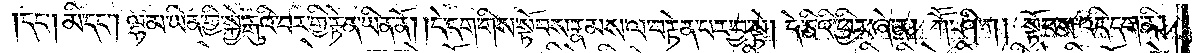དང༌། མི་དང༌། ལྷ་མ་ཡིན་གྱི་སྐྱེ་རྒུའི་བར་གྱི་རྟེན་ཡིན་ནོ། །དེ་དག་གིས་སྟོབས་རྣམས་ལ་བརྟེན་པར་བྱ་སྟེ། དེ་ཅིའི་ཕྱིར་ཞེ་ན། ཀཽ་ཤི་ཀ། སྟོབས་འདི་དག་ནི།
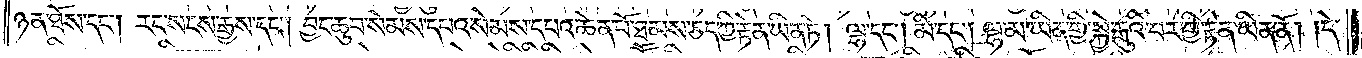ཉན་ཐོས་དང༌། རང་སངས་རྒྱས་དང༌། བྱང་ཆུབ་སེམས་དཔའ་སེམས་དཔའ་ཆེན་པོ་ཐམས་ཅད་ཀྱི་རྟེན་ཡིན་ཏེ། ལྷ་དང༌། མི་དང༌། ལྷ་མ་ཡིན་གྱི་སྐྱེ་རྒུའི་བར་གྱི་རྟེན་ཡིན་ནོ། །དེ་
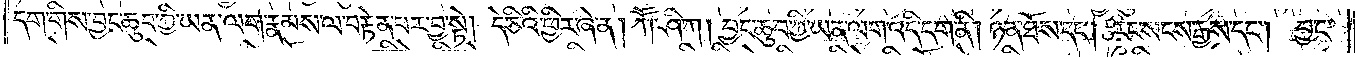དག་གིས་བྱང་ཆུབ་ཀྱི་ཡན་ལག་རྣམས་ལ་བརྟེན་པར་བྱ་སྟེ། དེ་ཅིའི་ཕྱིར་ཞེ་ན། ཀཽ་ཤི་ཀ། བྱང་ཆུབ་ཀྱི་ཡན་ལག་འདི་དག་ནི། ཉན་ཐོས་དང༌། རང་སངས་རྒྱས་དང༌། བྱང་
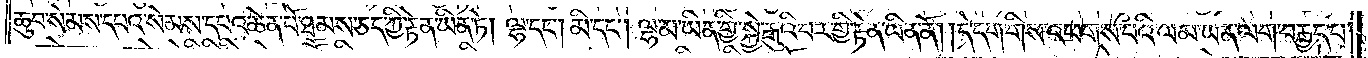ཆུབ་སེམས་དཔའ་སེམས་དཔའ་ཆེན་པོ་ཐམས་ཅད་ཀྱི་རྟེན་ཡིན་ཏེ། ལྷ་དང༌། མི་དང༌། ལྷ་མ་ཡིན་གྱི་སྐྱེ་རྒུའི་བར་གྱི་རྟེན་ཡིན་ནོ། །དེ་དག་གིས་འཕགས་པའི་ལམ་ཡན་ལག་བརྒྱད་པ་
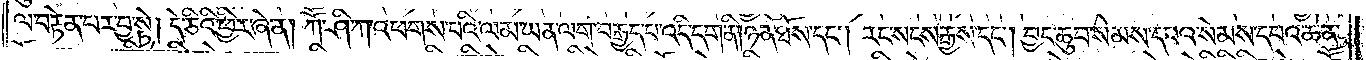ལ་བརྟེན་པར་བྱ་སྟེ། དེ་ཅིའི་ཕྱིར་ཞེ་ན། ཀཽ་ཤི་ཀ་འཕགས་པའི་ལམ་ཡན་ལག་བརྒྱད་པ་འདི་དག་ནི། ཉན་ཐོས་དང༌། རང་སངས་རྒྱས་དང༌། བྱང་ཆུབ་སེམས་དཔའ་སེམས་དཔའ་ཆེན་
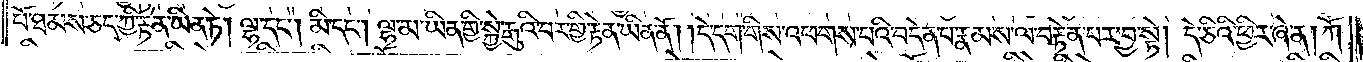པོ་ཐམས་ཅད་ཀྱི་རྟེན་ཡིན་ཏེ། ལྷ་དང༌། མི་དང༌། ལྷ་མ་ཡིན་གྱི་སྐྱེ་རྒུའི་བར་གྱི་རྟེན་ཡིན་ནོ། །དེ་དག་གིས་འཕགས་པའི་བདེན་པ་རྣམས་ལ་བརྟེན་པར་བྱ་སྟེ། དེ་ཅིའི་ཕྱིར་ཞེ་ན། ཀཽ་
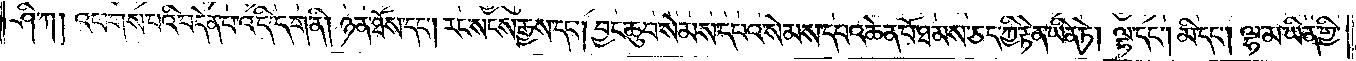ཤི་ཀ། འཕགས་པའི་བདེན་པ་འདི་དག་ནི། ཉན་ཐོས་དང༌། རང་སངས་རྒྱས་དང༌། བྱང་ཆུབ་སེམས་དཔའ་སེམས་དཔའ་ཆེན་པོ་ཐམས་ཅད་ཀྱི་རྟེན་ཡིན་ཏེ། ལྷ་དང༌། མི་དང༌། ལྷ་མ་ཡིན་གྱི་
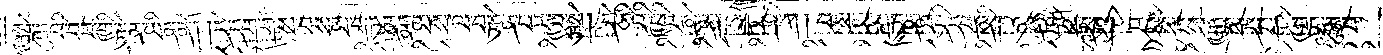སྐྱེ་རྒུའི་བར་གྱི་རྟེན་ཡིན་ནོ། །དེ་དག་གིས་བསམ་གཏན་རྣམས་ལ་བརྟེན་པར་བྱ་སྟེ། དེ་ཅིའི་ཕྱིར་ཞེ་ན། ཀཽ་ཤི་ཀ། བསམ་གཏན་འདི་དག་ནི། ཉན་ཐོས་དང༌། རང་སངས་རྒྱས་དང༌། བྱང་ཆུབ་
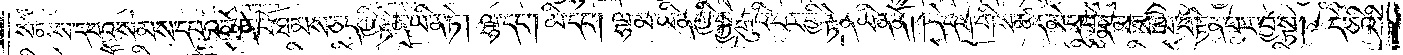སེམས་དཔའ་སེམས་དཔའ་ཆེན་པོ་ཐམས་ཅད་ཀྱི་རྟེན་ཡིན་ཏེ། ལྷ་དང༌། མི་དང༌། ལྷ་མ་ཡིན་གྱི་སྐྱེ་རྒུའི་བར་གྱི་རྟེན་ཡིན་ནོ། །དེ་དག་གིས་ཚད་མེད་པ་རྣམས་ལ་བརྟེན་པར་བྱ་སྟེ། དེ་ཅིའི་
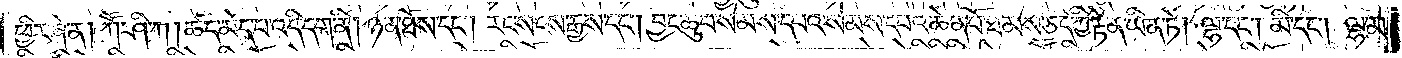ཕྱིར་ཞེ་ན། ཀཽ་ཤི་ཀ། ཚད་མེད་པ་འདི་དག་ནི། ཉན་ཐོས་དང༌། རང་སངས་རྒྱས་དང༌། བྱང་ཆུབ་སེམས་དཔའ་སེམས་དཔའ་ཆེན་པོ་ཐམས་ཅད་ཀྱི་རྟེན་ཡིན་ཏེ། ལྷ་དང༌། མི་དང༌། ལྷ་མ་
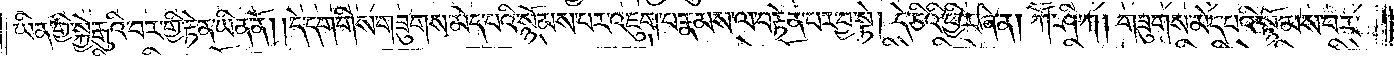ཡིན་གྱི་སྐྱེ་རྒུའི་བར་གྱི་རྟེན་ཡིན་ནོ། །དེ་དག་གིས་གཟུགས་མེད་པའི་སྙོམས་པར་འཇུག་པ་རྣམས་ལ་བརྟེན་པར་བྱ་སྟེ། དེ་ཅིའི་ཕྱིར་ཞེ་ན། ཀཽ་ཤི་ཀ། གཟུགས་མེད་པའི་སྙོམས་པར་
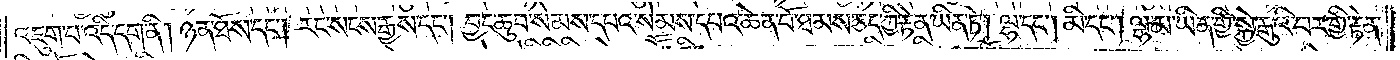འཇུག་པ་འདི་དག་ནི། ཉན་ཐོས་དང༌། རང་སངས་རྒྱས་དང༌། བྱང་ཆུབ་སེམས་དཔའ་སེམས་དཔའ་ཆེན་པོ་ཐམས་ཅད་ཀྱི་རྟེན་ཡིན་ཏེ། ལྷ་དང༌། མི་དང༌། ལྷ་མ་ཡིན་གྱི་སྐྱེ་རྒུའི་བར་གྱི་རྟེན་
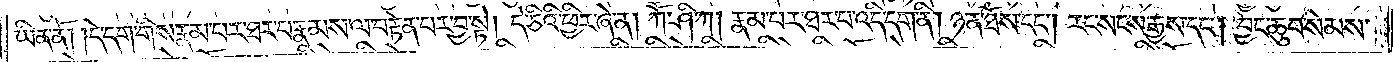ཡིན་ནོ། །དེ་དག་གིས་རྣམ་པར་ཐར་པ་རྣམས་ལ་བརྟེན་པར་བྱ་སྟེ། དེ་ཅིའི་ཕྱིར་ཞེ་ན། ཀཽ་ཤི་ཀ། རྣམ་པར་ཐར་པ་འདི་དག་ནི། ཉན་ཐོས་དང༌། རང་སངས་རྒྱས་དང༌། བྱང་ཆུབ་སེམས་
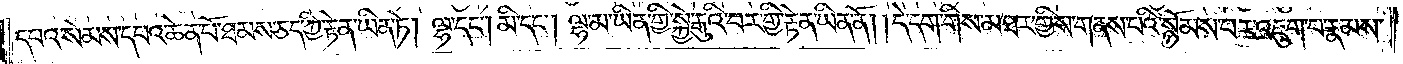དཔའ་སེམས་དཔའ་ཆེན་པོ་ཐམས་ཅད་ཀྱི་རྟེན་ཡིན་ཏེ། ལྷ་དང༌། མི་དང༌། ལྷ་མ་ཡིན་གྱི་སྐྱེ་རྒུའི་བར་གྱི་རྟེན་ཡིན་ནོ། །དེ་དག་གིས་མཐར་གྱིས་གནས་པའི་སྙོམས་པར་འཇུག་པ་རྣམས་
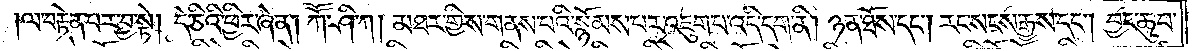ལ་བརྟེན་པར་བྱ་སྟེ། དེ་ཅིའི་ཕྱིར་ཞེ་ན། ཀཽ་ཤི་ཀ། མཐར་གྱིས་གནས་པའི་སྙོམས་པར་འཇུག་པ་འདི་དག་ནི། ཉན་ཐོས་དང༌། རང་སངས་རྒྱས་དང༌། བྱང་ཆུབ་
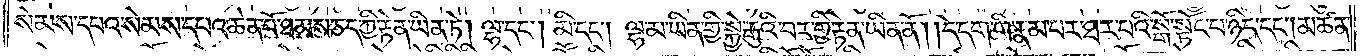སེམས་དཔའ་སེམས་དཔའ་ཆེན་པོ་ཐམས་ཅད་ཀྱི་རྟེན་ཡིན་ཏེ། ལྷ་དང༌། མི་དང༌། ལྷ་མ་ཡིན་གྱི་སྐྱེ་རྒུའི་བར་གྱི་རྟེན་ཡིན་ནོ། །དེ་དག་གིས་རྣམ་པར་ཐར་པའི་སྒོ་སྟོང་པ་ཉིད་དང༌། མཚན་
